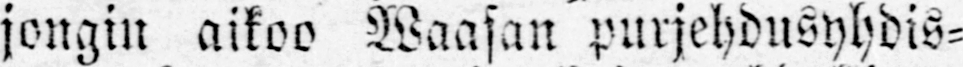jongin aikoo Waasan purjehdusyhdis-
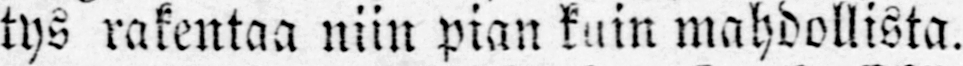tys rakentaa niin pian kuin mahdollista.
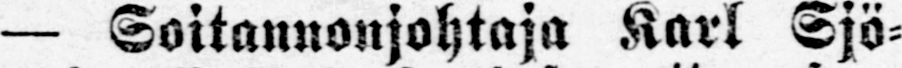— Soitannonjohtaja Karl Sjö-
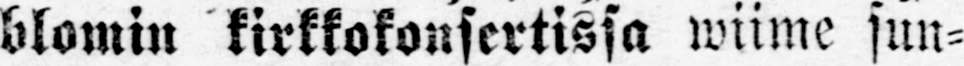blomin kirkkokonsertissa wiime sun-
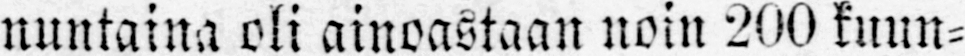nuntaina oli ainoastaan noin 200 kuun-
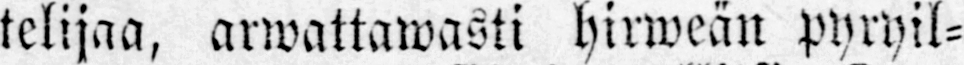telijaa, arwattawasti hirweän pyryil-
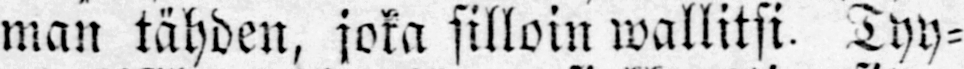man tähden, joka silloin wallitsi. Tyy-
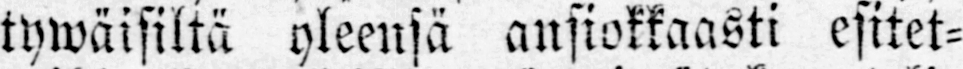tywäisiltä yleensä ansiokkaasti esitet-
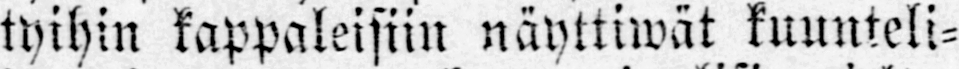tyihin kappaleisiin näyttiwät kuunteli-
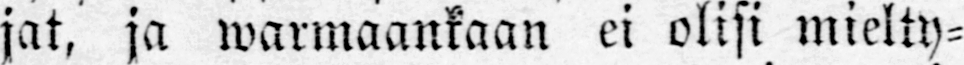jat, ja warmaankaan ei olisi mielty-
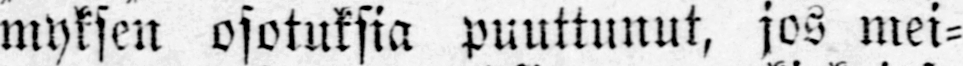myksen osotuksia puuttunut, jos mei-
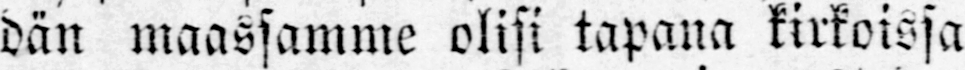dän maassamme olisi tapana kirkoissa
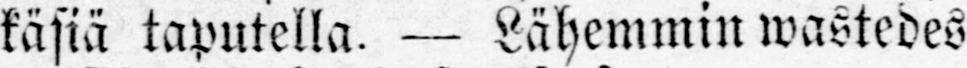käsiä taputella. — lähemmin wastedes
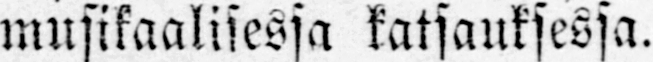musikaalisessa katsauksessa.
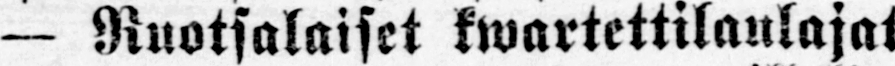— Ruotsalaiset kwartettilaulajat
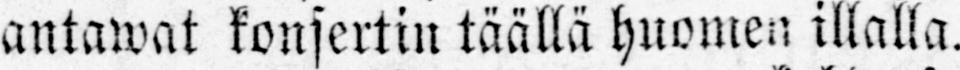antawat konsertin täällä huomen illalla.
